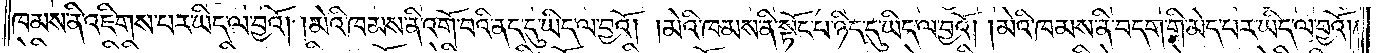ཁམས་ནི་འཇིགས་པར་ཡིད་ལ་བྱའོ། །མེའི་ཁམས་ནི་འགོ་བའི་ནད་དུ་ཡིད་ལ་བྱའོ། །མེའི་ཁམས་ནི་སྟོང་པ་ཉིད་དུ་ཡིད་ལ་བྱའོ། །མེའི་ཁམས་ནི་བདག་གི་མེད་པར་ཡིད་ལ་བྱའོ། །
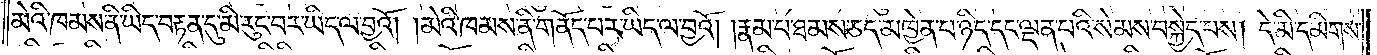མེའི་ཁམས་ནི་ཡིད་བརྟན་དུ་མི་རུང་བར་ཡིད་ལ་བྱའོ། །མེའི་ཁམས་ནི་གནོད་པར་ཡིད་ལ་བྱའོ། རྣམ་པ་ཐམས་ཅད་མཁྱེན་པ་ཉིད་དང་ལྡན་པའི་སེམས་བསྐྱེད་པས། དེ་མི་དམིགས་
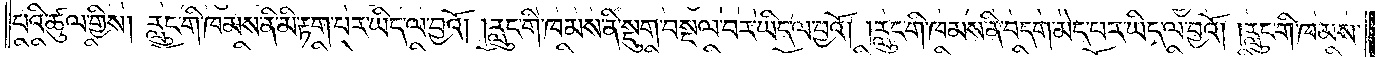པའི་ཚུལ་གྱིས། རླུང་གི་ཁམས་ནི་མི་རྟག་པར་ཡིད་ལ་བྱའོ། །རླུང་གི་ཁམས་ནི་སྡུག་བསྔལ་བར་ཡིད་ལ་བྱའོ། །རླུང་གི་ཁམས་ནི་བདག་མེད་པར་ཡིད་ལ་བྱའོ། །རླུང་གི་ཁམས་
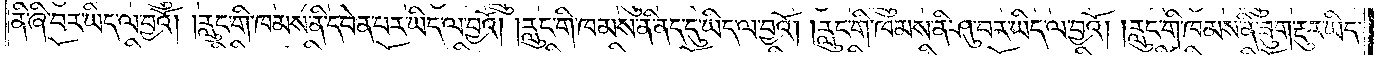ནི་ཞི་བར་ཡིད་ལ་བྱའོ། །རླུང་གི་ཁམས་ནི་དབེན་པར་ཡིད་ལ་བྱའོ། །རླུང་གི་ཁམས་ནི་ནད་དུ་ཡིད་ལ་བྱའོ། །རླུང་གི་ཁམས་ནི་ཤུ་བར་ཡིད་ལ་བྱའོ། །རླུང་གི་ཁམས་ནི་ཟུག་རྔུར་ཡིད་
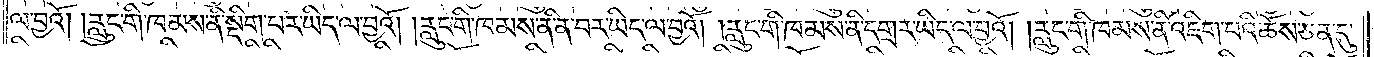ལ་བྱའོ། །རླུང་གི་ཁམས་ནི་སྡིག་པར་ཡིད་ལ་བྱའོ། །རླུང་གི་ཁམས་ནི་ན་པར་ཡིད་ལ་བྱའོ། །རླུང་གི་ཁམས་ནི་དགྲར་ཡིད་ལ་བྱའོ། །རླུང་གི་ཁམས་ནི་འཇིག་པའི་ཆོས་ཅན་དུ་
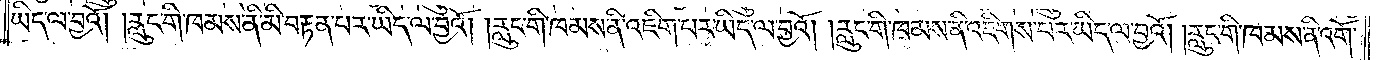ཡིད་ལ་བྱའོ། །རླུང་གི་ཁམས་ནི་མི་བརྟན་པར་ཡིད་ལ་བྱའོ། །རླུང་གི་ཁམས་ནི་འཇིག་པར་ཡིད་ལ་བྱའོ། །རླུང་གི་ཁམས་ནི་འཇིགས་པར་ཡིད་ལ་བྱའོ། །རླུང་གི་ཁམས་ནི་འགོ་
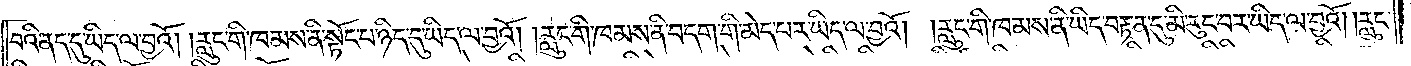བའི་ནད་དུ་ཡིད་ལ་བྱའོ། །རླུང་གི་ཁམས་ནི་སྟོང་པ་ཉིད་དུ་ཡིད་ལ་བྱའོ། །རླུང་གི་ཁམས་ནི་བདག་གི་མེད་པར་ཡིད་ལ་བྱའོ། །རླུང་གི་ཁམས་ནི་ཡིད་བརྟན་དུ་མི་རུང་བར་ཡིད་ལ་བྱའོ། །རླུང་
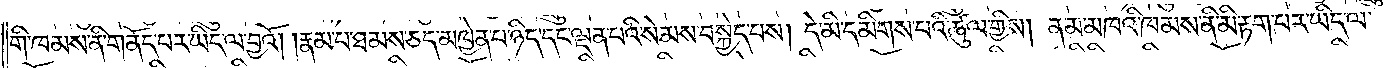གི་ཁམས་ནི་གནོད་པར་ཡིད་ལ་བྱའོ། །རྣམ་པ་ཐམས་ཅད་མཁྱེན་པ་ཉིད་དང་ལྡན་པའི་སེམས་བསྐྱེད་པས། དེ་མི་དམིགས་པའི་ཚུལ་གྱིས། །ནམ་མཁའི་ཁམས་ནི་མི་རྟག་པར་ཡིད་ལ་
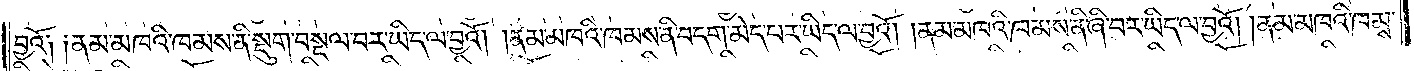བྱའོ༏ ༏ནམ་མཁའི་ཁམས་ནི་སྡུག་བསྔལ་བར་ཡིད་ལ་བྱའོ། །ནམ་མཁའི་ཁམས་ནི་བདག་མེད་པར་ཡིད་ལ་བྱའོ། །ནམ་མཁའི་ཁམས་ནི་ཞི་བར་ཡིད་ལ་བྱའོ། །ནམ་མཁའི་ཁམས་
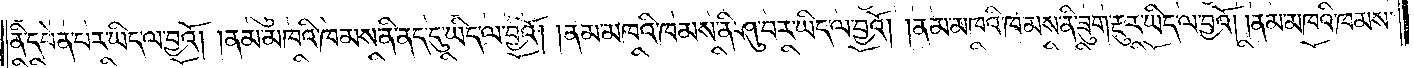ནི་དབེན་པར་ཡིད་ལ་བྱའོ། །ནམ་མཁའི་ཁམས་ནི་ནད་དུ་ཡིད་ལ་བྱའོ། །ནམ་མཁའི་ཁམས་ནི་ཤུ་བར་ཡིད་ལ་བྱའོ། །ནམ་མཁའི་ཁམས་ནི་ཟུག་རྔུར་ཡིད་ལ་བྱའོ། །ནམ་མཁའི་ཁམས་
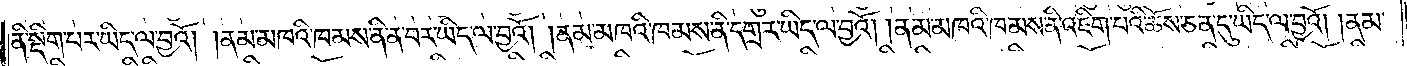ནི་སྡིག་པར་ཡིད་ལ་བྱའོ། །ནམ་མཁའི་ཁམས་ནི་ན་བར་ཡིད་ལ་བྱའོ། །ནམ་མཁའི་ཁམས་ནི་དགྲར་ཡིད་ལ་བྱའོ། །ནམ་མཁའི་ཁམས་ནི་འཇིག་པའི་ཆོས་ཅན་དུ་ཡིད་ལ་བྱའོ། །ནམ་
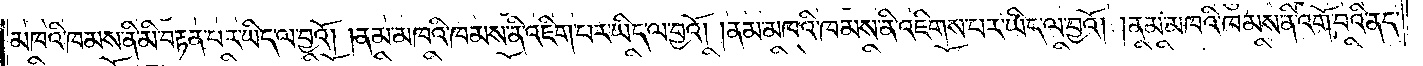མཁའི་ཁམས་ནི་མི་བརྟན་པར་ཡིད་ལ་བྱའོ། །ནམ་མཁའི་ཁམས་ནི་འཇིག་པར་ཡིད་ལ་བྱའོ། །ནམ་མཁའི་ཁམས་ནི་འཇིགས་པར་ཡིད་ལ་བྱའོ། །ནམ་མཁའི་ཁམས་ནི་འགོ་བའི་ནད་
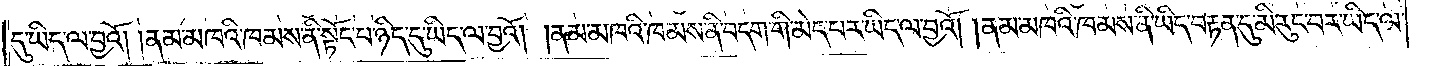དུ་ཡིད་ལ་བྱའོ། །ནམ་མཁའི་ཁམས་ནི་སྟོང་པ་ཉིད་དུ་ཡིད་ལ་བྱའོ། །ནམ་མཁའི་ཁམས་ནི་བདག་གི་མེད་པར་ཡིད་ལ་བྱའོ། །ནམ་མཁའི་ཁམས་ནི་ཡིད་བརྟན་དུ་མི་རུང་བར་ཡིད་ལ་
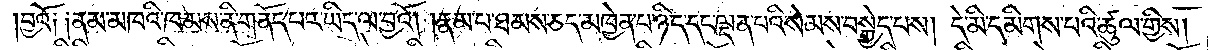བྱའོ༏ ༏ནམ་མཁའི་ཁམས་ནི་གནོད་པར་ཡིད་ལ་བྱའོ། །རྣམ་པ་ཐམས་ཅད་མཁྱེན་པ་ཉིད་དང་ལྡན་པའི་སེམས་བསྐྱེད་པས། དེ་མི་དམིགས་པའི་ཚུལ་གྱིས།
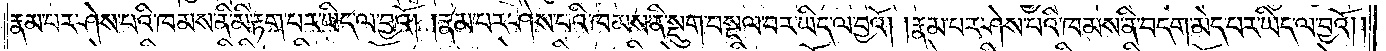རྣམ་པར་ཤེས་པའི་ཁམས་ནི་མི་རྟག་པར་ཡིད་ལ་བྱའོ། །རྣམ་པར་ཤེས་པའི་ཁམས་ནི་སྡུག་བསྔལ་བར་ཡིད་ལ་བྱའོ། །རྣམ་པར་ཤེས་པའི་ཁམས་ནི་བདག་མེད་པར་ཡིད་ལ་བྱའོ། །
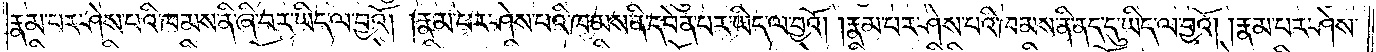རྣམ་པར་ཤེས་པའི་ཁམས་ནི་ཞི་བར་ཡིད་ལ་བྱའོ། །རྣམ་པར་ཤེས་པའི་ཁམས་ནི་དབེན་པར་ཡིད་ལ་བྱའོ། །རྣམ་པར་ཤེས་པའི་ཁམས་ནི་ནད་དུ་ཡིད་ལ་བྱའོ། །རྣམ་པར་ཤེས་
